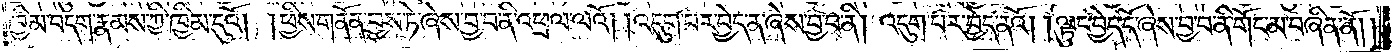ཁྱིམ་བདག་རྣམས་ཀྱི་ཁྱིམ་དུའོ། །ཕྱིས་གནོན་བྱས་ཏེ་ཞེས་བྱ་བ་ནི་འཕྲལ་ལའོ། །འདུག་པར་བྱེད་ན་ཞེས་བྱ་བ་ནི། འདུག་པར་བྱེད་ནའོ། །ལྟུང་བྱེད་དོ་ཞེས་བྱ་བ་ནི་གོང་མ་བཞིན་ནོ། །
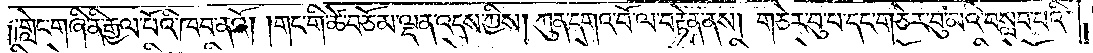གླེང་གཞི་ནི་རྒྱལ་པོའི་ཁབ་ནའོ། །གང་གི་ཚེ་བཅོམ་ལྡན་འདས་ཀྱིས། ཀུན་དགའ་བོ་ལ་བརྟེན་ནས། གཅེར་བུ་པ་དང་གཅེར་བུ་མའི་བསླབ་པའི་
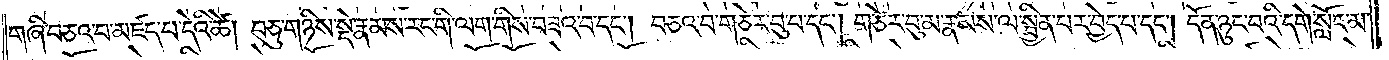གཞི་བཅའ་བ་མཛད་པ་དེའི་ཚེ། བཅུ་གཉིས་སྡེ་རྣམས་རང་གི་ལག་གིས་བཟའ་བ་དང༌། བཅའ་བ་གཅེར་བུ་པ་དང༌། གཅེར་བུ་མ་རྣམས་ལ་སྦྱིན་པར་བྱེད་པ་དང༌། དོན་ཉུང་བའི་དགེ་སློང་མ་
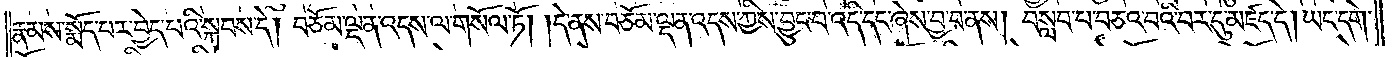རྣམས་སྨོད་པར་བྱེད་པའི་སྐབས་དེ། བཅོམ་ལྡན་འདས་ལ་གསོལ་ཏོ། །དེ་ནས་བཅོམ་ལྡན་འདས་ཀྱིས་བྱུང་བ་འདི་དང་ཞེས་བྱ་བ་ནས། བསླབ་པ་བཅའ་བའི་བར་དུ་མཛད་དེ། ཡང་དགེ་
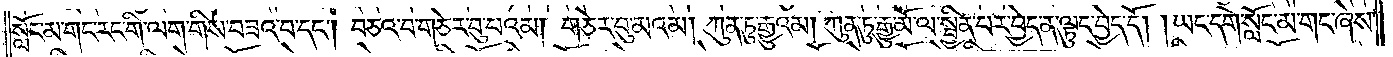སློང་མ་གང་རང་གི་ལག་གིས་བཟའ་བ་དང༌། བཅའ་བ་གཅེར་བུ་པའམ། གཅེར་བུ་མའམ། ཀུན་ཏུ་རྒྱུའམ། ཀུན་ཏུ་རྒྱུ་མོ་ལ་སྦྱིན་པར་བྱེད་ན་ལྟུང་བྱེད་དོ། །ཡང་དགེ་སློང་མ་གང་ཞེས་
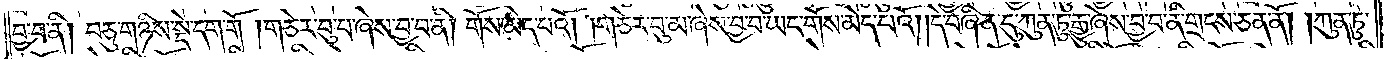བྱ་བ་ནི། བཅུ་གཉིས་སྡེ་དག་གོ །གཅེར་བུ་པ་ཞེས་བྱ་བ་ནི། གོས་མེད་པའོ། །གཅེར་བུ་མ་ཞེས་བྱ་བ་ཡང་གོས་མེད་པའོ། །དེ་བཞིན་དུ་ཀུན་ཏུ་རྒྱུ་ཞེས་བྱ་བ་ནི་གྲངས་ཅན་ནོ། །ཀུན་ཏུ་
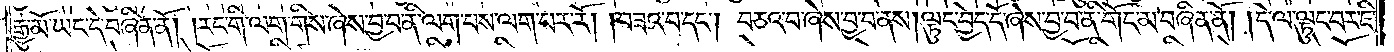རྒྱུ་མོ་ཡང་དེ་བཞིན་ནོ། །རང་གི་ལག་གིས་ཞེས་བྱ་བ་ནི་ལག་པས་ལག་པར་རོ། །བཟའ་བ་དང༌། བཅའ་བ་ཞེས་བྱ་བ་ནས། ལྟུང་བྱེད་དོ་ཞེས་བྱ་བ་ནི་གོང་མ་བཞིན་ནོ། །དེ་ལ་ལྟུང་བར་ཇི་
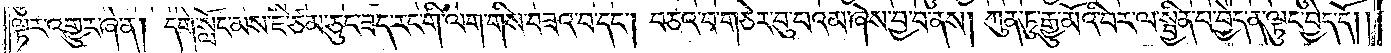ལྟར་འགྱུར་ཞེ་ན། དགེ་སློང་མས་ཇི་ཙམ་ཅུང་ཟད་རང་གི་ལག་གིས་བཟའ་བ་དང༌། བཅའ་བ་གཅེར་བུ་པའམ་ཞེས་བྱ་བ་ནས། ཀུན་ཏུ་རྒྱུ་མོའི་བར་ལ་སྦྱིན་པ་བྱེད་ན་ལྟུང་བྱེད་དོ། །
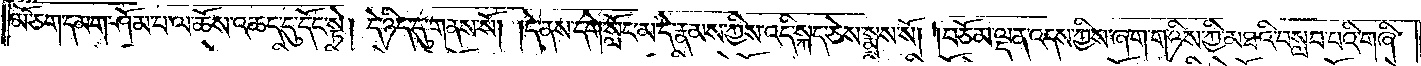མོ་ཅག་དམག་ཤོམ་པ་ལ་ཆོས་འཆད་དུ་དོང་སྟེ། དེ་ཉིད་དུ་གནས་སོ། །དེ་ནས་དགེ་སློང་མ་དེ་རྣམས་ཀྱིས་འདི་སྐད་ཅེས་སྨྲས་སོ། །བཅོམ་ལྡན་འདས་ཀྱིས་ཞག་གཉིས་ཀྱི་མཐའི་བསླབ་པའི་གཞི་
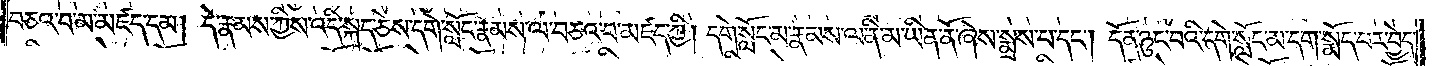བཅའ་བ་མ་མཛད་དམ། དེ་རྣམས་ཀྱིས་འདི་སྐད་ཅེས་དགེ་སློང་རྣམས་ལ་བཅའ་བ་མཛད་ཀྱི། དགེ་སློང་མ་རྣམས་ལ་ནི་མ་ཡིན་ནོ་ཞེས་སྨྲས་པ་དང༌། དོན་ཉུང་བའི་དགེ་སློང་མ་དག་སྨོད་པར་བྱེད་
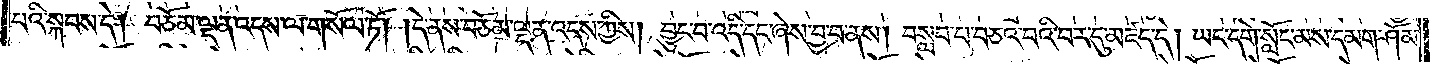པའི་སྐབས་དེ། བཅོམ་ལྡན་འདས་ལ་གསོལ་ཏོ། །དེ་ནས་བཅོམ་ལྡན་འདས་ཀྱིས། བྱུང་བ་འདི་དང་ཞེས་བྱ་བ་ནས། བསླབ་པ་བཅའ་བའི་བར་དུ་མཛད་དེ། ཡང་དགེ་སློང་མས་དམག་ཤོམ་
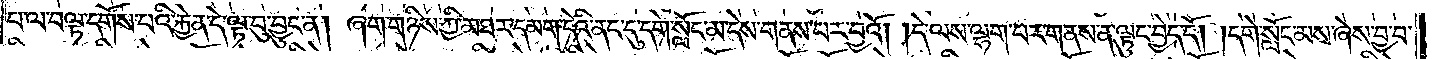པ་ལ་བལྟ་དགོས་པའི་རྐྱེན་དེ་ལྟ་བུ་བྱུང་ན། ཞག་གཉིས་ཀྱི་མཐར་དམག་དེའི་ནང་དུ་དགེ་སློང་མ་དེས་གནས་པར་བྱའོ། །དེ་ལས་ལྷག་པར་གནས་ན་ལྟུང་བྱེད་དོ། །དགེ་སློང་མས་ཞེས་བྱ་བ་
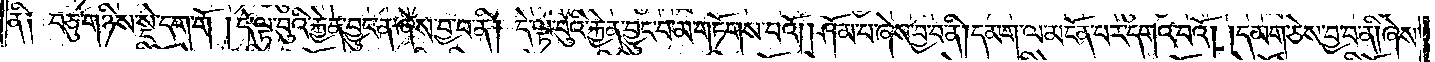ནི༑ བཅུ་གཉིས་སྡེ་དག་གོ །དེ་ལྟ་བུའི་རྐྱེན་བྱུང་ན་ཞེས་བྱ་བ་ནི། དེ་ལྟ་བུའི་རྐྱེན་བྱུང་བ་མ་གཏོགས་པའོ། །ཤོམ་པ་ཞེས་བྱ་བ་ནི། དམག་ལ་མངོན་པར་དགའ་བའོ། །དམག་ཅེས་བྱ་བ་ནི། ཞེས་
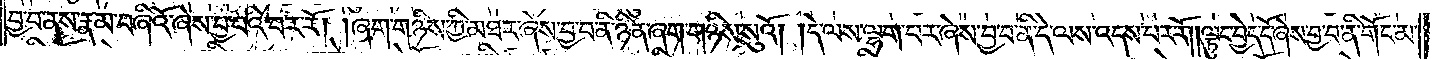བྱ་བ་ནས་རྣམ་བཞིའོ་ཞེས་བྱ་བའི་བར་རོ། །ཞག་གཉིས་ཀྱི་མཐར་ཞེས་བྱ་བ་ནི་ཉིན་ཞག་གཉིས་སུའོ། །དེ་ལས་ལྷག་པར་ཞེས་བྱ་བ་ནི་དེ་ལས་འདས་པར་རོ། །ལྟུང་བྱེད་དོ་ཞེས་བྱ་བ་ནི་གོང་མ་
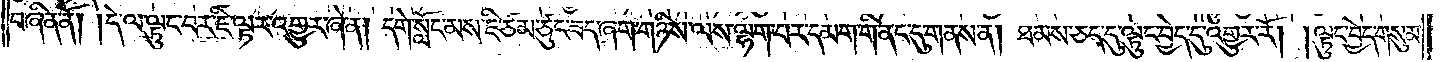བཞིན་ནོ། །དེ་ལ་ལྟུང་བར་ཇི་ལྟར་འགྱུར་ཞེན། དགེ་སློང་མས་ཇི་ཙམ་ཅུང་ཟད་ཞག་གཉིས་ལས་ལྷག་པར་དམག་གི་ནང་དུ་གནས་ན། ཐམས་ཅད་དུ་ལྟུང་བྱེད་དུ་འགྱུར་རོ། །ལྟུང་བྱེད་གསུམ་
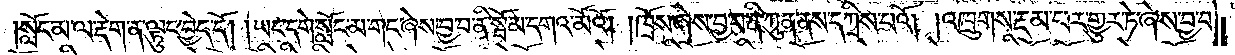སློང་མ་ལ་རྡེག་ན་ལྟུང་བྱེད་དོ། །ཡང་དགེ་སློང་མ་གང་ཞེས་བྱ་བ་ནི་སྦོམ་དགའ་མོའོ། །ཁྲོས་ཞེས་བྱ་བ་ནི་ཀུན་ནས་དཀྲིས་པའོ། །འཁྲུགས་རྔམ་པར་གྱུར་ཏེ་ཞེས་བྱ་བ་
